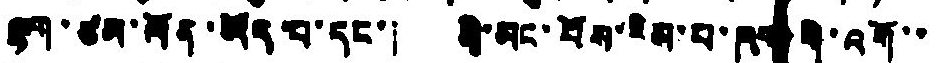ལྷག་ཙམ་ལོན་ཡོད པ་དང་། མི་མང་པོས་རིམ་པ་ཁག་གི་འགོ་་
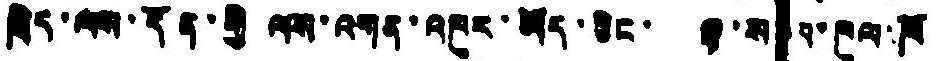ཁྲིད་ལས་དོན་གྱི ལས་འགན་འཁུར་ཡོད་ཅིང་ ལྷ་ས་ས་ཁུལ་ཁོ
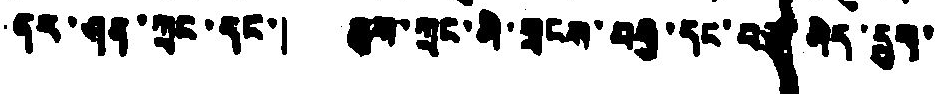ནར་ཤན་ཀྲང་དང་། ཆུས་ཀྲང་མི་གྲངས་བརྒྱ་དང་བཅུ་མེད་དྲུག་
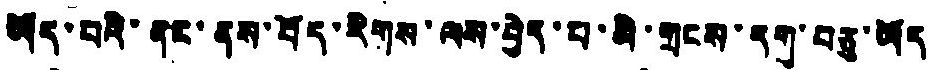ཡོད་པའི་ནང་ནས་བོད་རིགས་ལས་བྱེད་པ་ཞི་གྲངས་དགུ་བཅུ་ཡོད
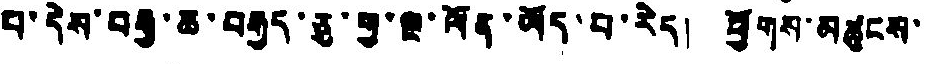པ་དེས་བརྒྱ་ཆ་བརྒྱད་ཅུ་གྱ་ལྔ་ལོན་ཡོད་པ་རེད། ཕྱོགས་མཚུངས་
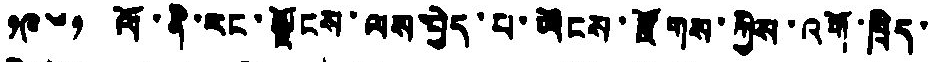༡༩༦༡ ལོ་ནི་རང་ལྗོངས་ལས་བྱེད་པ་ཡིངས་རྫོགས་ཀྱིས་འགོ་ཁྲིད་
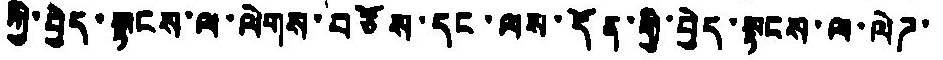ཀྱི་བྱེད་སྟངས་ལ་ལེགས་བཅོས་དང་ལས་དོན་གྱི་བྱེད་སྟངས་ལ་ལེཌ་
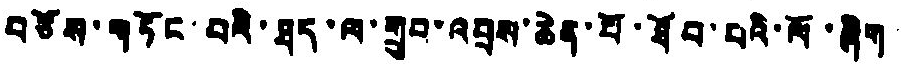བཅོས་གཏོང་བའི་ཐད་ལ་གྲུབ་འབྲས་ཆེན་པོ་ཐོབ་པའི་ལོ་ཞིག་
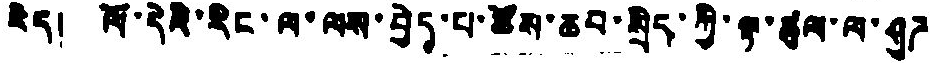རེད། ལོ་དེའི་རིང་ལ་ལས་བྱེད་པ་ཚོས་ཆབ་སྲིད་ཀྱི་ལྟ་ཚུལ་ལ་ཤུཌ
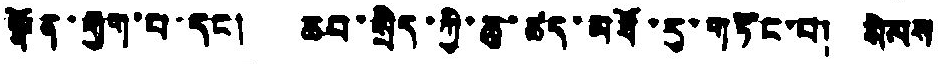སྣོན་རྒྱག་བ་དང། ཆབ་སྲིད་ཀྱི་ཆུ་ཚད་མཐོ་རུ་གཏོང་བ། སེམས
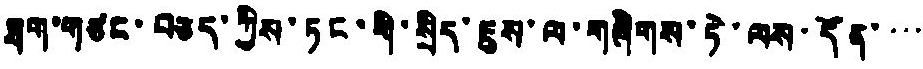ཐག་གཙང་བཅད་ཀྱིས་ཏང་གི་སྲིད་ཇུས་ལ་གཞིགས་ཏེ་ལས་དོན་་་་
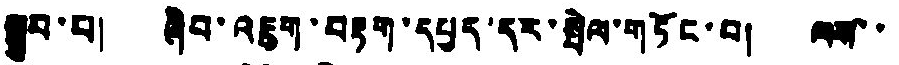སྒྲུབ་པ། ཞིབ་འཇུག་བརྟག་དཔྱད་དར་སྤེལ་གཏོང་བ། ལས་་་
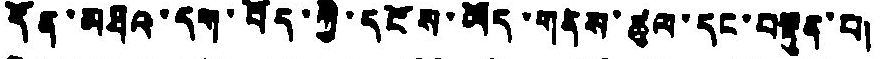དོན་མཐའ་དག་བོད་ཀྱི་དངོས་ཡོད་གནས་ཚུལ་དང་བསྟུན་པ།
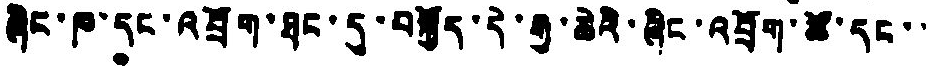ཞིང་ཁ་དང་འབྲོག་ཐང་དུ་བསྐྱོད་དེ་རྒྱ་ཆེའི་ཞིང་འབྲོག་ཚོ་དང་་
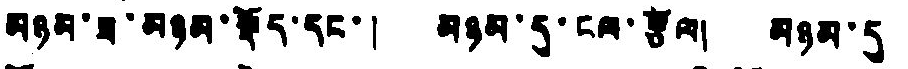མཉམ་ཟ་མཉམ་སྡོད་དང་། མཉམ་དུ་ངལ་རྩོལ། མཉམ་དུ་
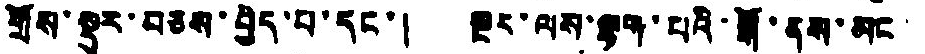གྲོས་སྡུར་བཅས་བྱེད་པ་དང་། སྔར་ལས་ལྷག་པའི་སྒོ་ནས་མང་
